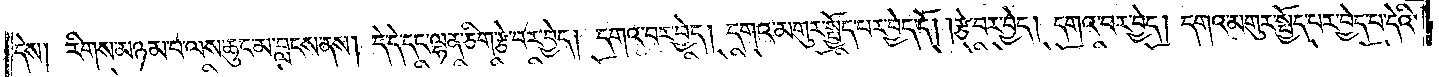དེས། རིགས་མཉམ་པ་ལས་ཆུང་མ་བླངས་ནས། དེ་དེ་དང་ལྷན་ཅིག་རྩེ་བར་བྱེད། དགའ་བར་བྱེད། དགའ་མགུར་སྤྱོད་པར་བྱེད་དོ། །རྩེ་བར་བྱེད། དགའ་བར་བྱེད། དགའ་མགུར་སྤྱོད་པར་བྱེད་པ་དེའི་
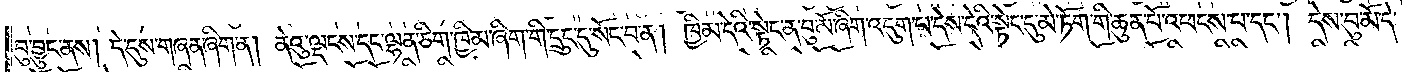བུ་བྱུང་ནས། དེ་དུས་གཞན་ཞིག་ན། ནེའུ་ལྡངས་དང་ལྷན་ཅིག་ཁྱིམ་ཞིག་གི་དྲུང་དུ་སོང་བ་ན། ཁྱིམ་དེའི་སྟེང་ན་བུ་མོ་ཞིག་འདུག་པ་དེས་དེའི་སྟེང་དུ་མེ་ཏོག་གི་ཆུན་པོ་འཕངས་པ་དང༌། དེས་བུ་མོ་དེ་
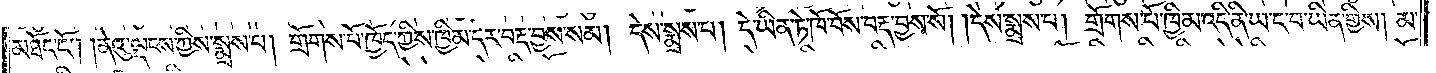མཐོང་ངོ༌། །ནེའུ་ལྡངས་ཀྱིས་སྨྲས་པ། གྲོགས་པོ་ཁྱོད་ཀྱིས་ཁྱིམ་དེར་བརྡ་བྱས་སམ། དེས་སྨྲས་པ། དེ་ཡིན་ཏེ་ཁོ་བོས་བརྡ་བྱས་སོ། །དེས་སྨྲས་པ། གྲོགས་པོ་ཁྱིམ་འདི་ནི་ཡང་བ་ཡིན་གྱིས། མ་
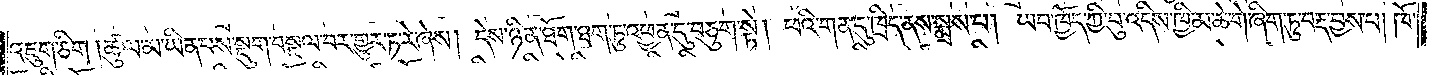འཇུག་ཅིག །ཚུལ་མ་ཡིན་པས་སྡུག་བསྔལ་བར་གྱུར་ཏ་རེ་ཞེས། དེས་ཉིན་ཐོག་ཐག་ཏུ་འཕྱན་དུ་བཅུག་སྟེ། ཕའི་གན་དུ་ཁྲིད་ནས་སྨྲས་པ། ཡབ་ཁྱོད་ཀྱི་བུ་འདིས་ཁྱིམ་ཆེ་གེ་ཞིག་ཏུ་བརྡ་བྱས་པ། ཁོ་
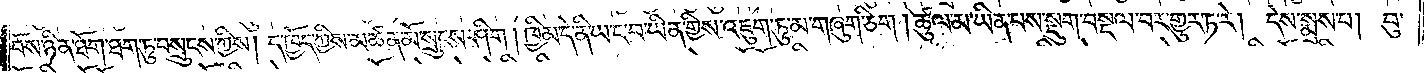བོས་ཉིན་ཐོག་ཐག་ཏུ་བསྲུངས་ཀྱིས། ད་ཁྱོད་ཀྱིས་མཚན་མོ་སྲུངས་ཤིག །ཁྱིམ་དེ་ནི་ཡ་ང་བ་ཡིན་གྱིས་འཇུག་ཏུ་མ་གཞུག་ཅིག །ཚུལ་མ་ཡིན་པས་སྡུག་བསྔལ་བར་གྱུར་ཏ་རེ། དེས་སྨྲས་པ། བུ་
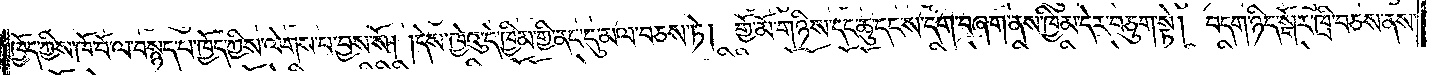ཁྱོད་ཀྱིས་ཁོ་བོ་ལ་བསྙད་པ་ཁྱོད་ཀྱིས་ལེགས་པ་བྱས་སོ། །དེས་ཁྱེའུ་དེ་ཁྱིམ་གྱི་ནང་དུ་མལ་བཅས་ཏེ། གྱོ་མོ་གཉིས་དང་ཆུ་དང་ས་དག་བཞག་ནས་ཁྱིམ་དེར་བཅུག་སྟེ། བདག་ཉིད་སྒོར་ཁྲི་བཅས་ནས་
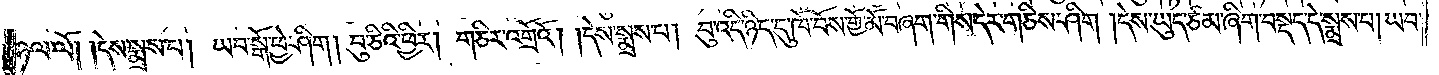ཉལ་ལོ། །དེས་སྨྲས་པ། ཡབ་སྒོ་ཕྱེ་ཤིག། བུ་ཅིའི་ཕྱིར། གཅིར་འགྲོའོ། །དེས་སྨྲས་པ། བུ་འདི་ཉིད་དུ་ཁོ་བོས་གྱོ་མོ་བཞག་གིས་དེར་གཅིས་ཤིག །དེས་ཡུད་ཙམ་ཞིག་བསྡད་དེ་སྨྲས་པ། ཡབ་
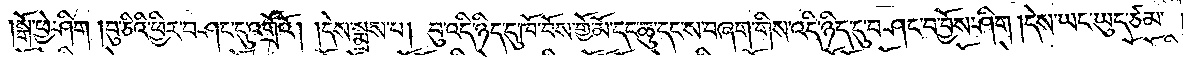སྒོ་ཕྱེ་ཤིག །བུ་ཅིའི་ཕྱིར་བཤང་དུ་འགྲོའོ། །དེས་སྨྲས་པ། བུ་འདི་ཉིད་དུ་ཁོ་བོས་གྱོ་མོ་དང་ཆུ་དང་ས་བཞག་གིས་འདི་ཉིད་དུ་བཤང་བ་ཕྱོགས་ཤིག །དེས་ཡང་ཡུད་ཙམ་
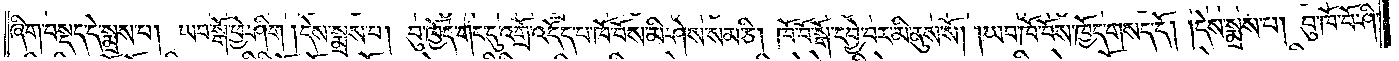ཞིག་བསྡད་དེ་སྨྲས་པ། ཡབ་སྒོ་ཕྱེ་ཤིག །དེས་སྨྲས་པ། བུ་ཁྱོད་གང་དུ་འགྲོ་འདོད་པ་ཁོ་བོས་མི་ཤེས་སམ་ཅི། ཁོ་བོ་སྒོ་དབྱེ་བར་མི་ནུས་སོ། །ཡབ་ཁོ་བོས་ཁྱོད་གསད་དོ། །དེས་སྨྲས་པ། བུ་ཁོ་བོ་ཤི་
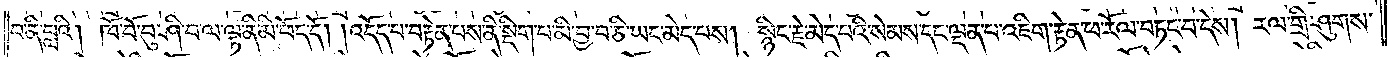བ་ནི་བླའི། ཁོ་བོ་བུ་ཤི་བ་ལ་ལྟ་ནི་མི་ཕོད་དོ། །འདོད་པ་བརྟེན་པས་ནི་སྡིག་པ་མི་བྱ་བ་ཅི་ཡང་མེད་པས། སྙིང་རྗེ་མེད་པའི་སེམས་དང་ལྡན་པ་འཇིག་རྟེན་ཕ་རོལ་བཏང་བ་དེས། རལ་གྲི་ཤུགས་
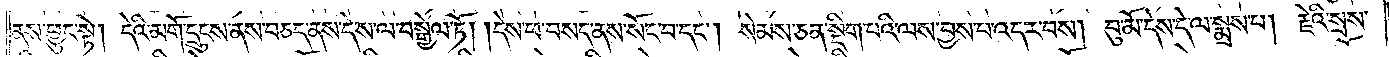ནས་ཕྱུང་སྟེ། དེའི་མགོ་དྲུངས་ནས་བཅད་ནས་དེ་ས་ལ་བསྒྱེལ་ཏོ། །དེས་ཕ་བསད་ནས་སོང་བ་དང༌། སེམས་ཅན་སྡིག་པའི་ལས་བྱས་པ་འདར་བས། བུ་མོ་དེས་དེ་ལ་སྨྲས་པ། རྗེའི་སྲས་
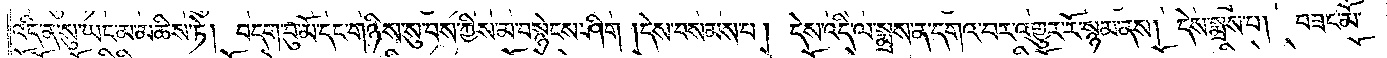འདི་ན་སུ་ཡང་མ་མཆིས་ཏེ། བདག་བུ་མོ་དང་གཉིས་སུ་བས་ཀྱིས་མ་བསྙེངས་ཤིག །དེས་བསམས་པ། དེས་འདི་ལ་སྨྲས་ན་དགའ་བར་འགྱུར་རོ་སྙམ་ནས། དེས་སྨྲས་པ། བཟང་མོ་
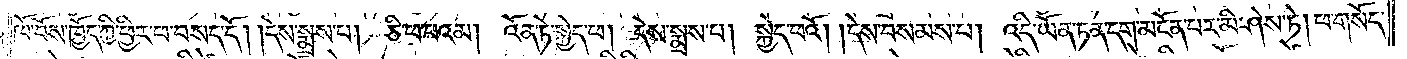ཁོ་བོས་ཁྱོད་ཀྱི་ཕྱིར་ཕ་བསད་དོ། །དེས་སྨྲས་པ། ཅི་ཕ་པའམ། འོན་ཏེ་སྐྱེད་ཕ། དེས་སྨྲས་པ། སྐྱེད་ཕའོ། །དེས་བསམས་པ། འདི་ཡོན་ཏན་དག་མངོན་པར་མི་ཤེས་ཏེ། ཕ་གསོད་
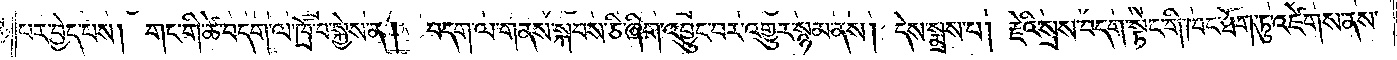པར་བྱེད་པས། གང་གི་ཚེ་བདག་ལ་ཁྲོ་བ་སྐྱེས་ན། བདག་ལ་གནས་སྐབས་ཅི་ཞིག་འབྱུང་བར་འགྱུར་སྙམ་ནས། དེས་སྨྲས་པ། རྗེའི་སྲས་བདག་སྟེང་གི་ཁང་ཐོག་ཏུ་འཛེགས་ནས་
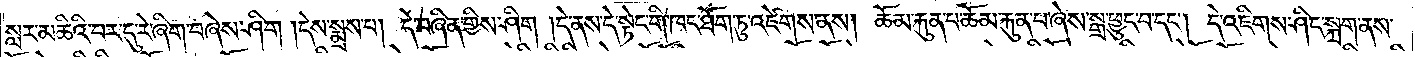སླར་མཆིའི་བར་དུ་རེ་ཞིག་བཞེས་ཤིག །དེས་སྨྲས་པ། དེ་བཞིན་གྱིས་ཤིག །དེ་ནས་དེ་སྟེང་གི་ཁང་ཐོག་ཏུ་འཛེགས་ནས། ཆོམ་རྐུན་པ་ཆོམ་རྐུན་པ་ཞེས་སྒྲ་ཕྱུང་བ་དང༌། དེ་འཇིགས་ཤིང་སྐྲག་ནས་
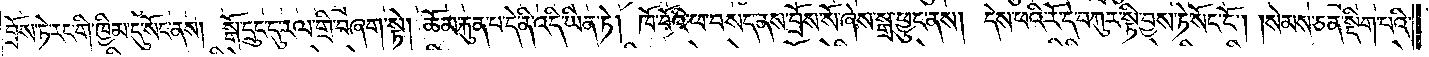བྲོས་ཏེ་རང་གི་ཁྱིམ་དུ་སོང་ནས། སྒོ་དྲུང་དུ་རལ་གྲི་བཞག་སྟེ། ཆོམ་རྐུན་པ་དེ་ནི་འདི་ཡིན་ཏེ། ཁོ་བོའི་ཕ་བསད་ནས་བྲོས་སོ་ཞེས་སྒྲ་ཕྱུང་ནས། དེས་ཕའི་རོ་དེ་བཀུར་སྟི་བྱས་ཏེ་སོང་ངོ༌། །སེམས་ཅན་སྡིག་པའི་
